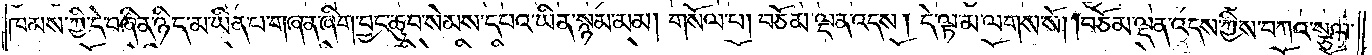ཁམས་ཀྱི་དེ་བཞིན་ཉིད་མ་ཡིན་པ་གཞན་ཞིག་བྱང་ཆུབ་སེམས་དཔའ་ཡིན་སྙམ་མམ། གསོལ་པ། བཅོམ་ལྡན་འདས། དེ་ལྟ་མ་ལགས་སོ། །བཅོམ་ལྡན་འདས་ཀྱིས་བཀའ་སྩལ་
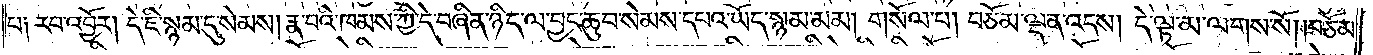པ༑ རབ་འབྱོར། དེ་ཇི་སྙམ་དུ་སེམས། རྣ་བའི་ཁམས་ཀྱི་དེ་བཞིན་ཉིད་ལ་བྱང་ཆུབ་སེམས་དཔའ་ཡོད་སྙམ་མམ། གསོལ་པ། བཅོམ་ལྡན་འདས། དེ་ལྟ་མ་ལགས་སོ། །བཅོམ་
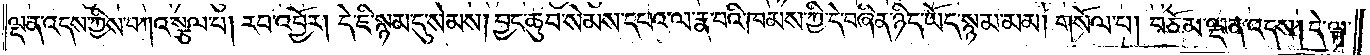ལྡན་འདས་ཀྱིས་བཀའ་སྩལ་པ། རབ་འབྱོར། དེ་ཇི་སྙམ་དུ་སེམས། བྱང་ཆུབ་སེམས་དཔའ་ལ་རྣ་བའི་ཁམས་ཀྱི་དེ་བཞིན་ཉིད་ཡོད་སྙམ་མམ། གསོལ་པ། བཅོམ་ལྡན་འདས། དེ་ལྟ་
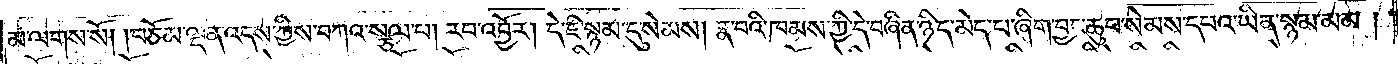མ་ལགས་སོ། །བཅོམ་ལྡན་འདས་ཀྱིས་བཀའ་སྩལ་པ། རབ་འབྱོར། དེ་ཇི་སྙམ་དུ་སེམས། རྣ་བའི་ཁམས་ཀྱི་དེ་བཞིན་ཉིད་མེད་པ་ཞིག་བྱང་ཆུབ་སེམས་དཔའ་ཡིན་སྙམ་མམ་།
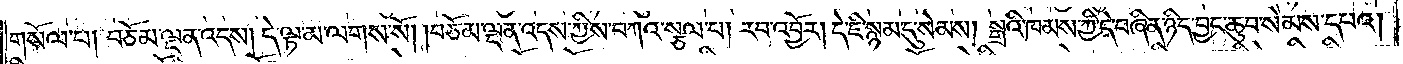གསོལ་པ། བཅོམ་ལྡན་འདས། དེ་ལྟ་མ་ལགས་སོ། །བཅོམ་ལྡན་འདས་ཀྱིས་བཀའ་སྩལ་པ། རབ་འབྱོར། དེ་ཇི་སྙམ་དུ་སེམས། སྒྲའི་ཁམས་ཀྱི་དེ་བཞིན་ཉིད་བྱང་ཆུབ་སེམས་དཔའ།
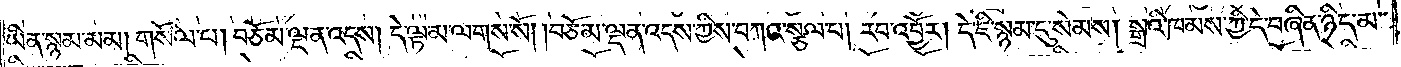ཡིན་སྙམ་མམ། གསོལ་པ། བཅོམ་ལྡན་འདས། དེ་ལྟ་མ་ལགས་སོ། །བཅོམ་ལྡན་འདས་ཀྱིས་བཀའ་སྩལ་པ། རབ་འབྱོར། དེ་ཇི་སྙམ་དུ་སེམས། སྒྲའི་ཁམས་ཀྱི་དེ་བཞིན་ཉིད་མ་
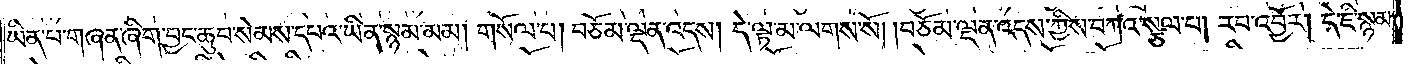ཡིན་པ་གཞན་ཞིག་བྱང་ཆུབ་སེམས་དཔའ་ཡིན་སྙམ་མམ། གསོལ་པ། བཅོམ་ལྡན་འདས། དེ་ལྟ་མ་ལགས་སོ། །བཅོམ་ལྡན་འདས་ཀྱིས་བཀའ་སྩལ་པ། རབ་འབྱོར། དེ་ཇི་སྙམ་
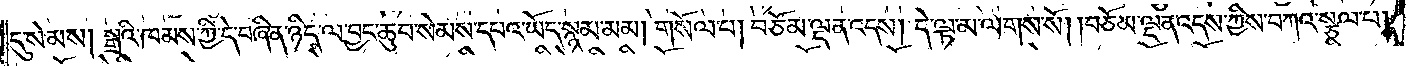དུ་སེམས། སྒྲའི་ཁམས་ཀྱི་དེ་བཞིན་ཉིད་ལ་བྱང་ཆུབ་སེམས་དཔའ་ཡོད་སྙམ་མམ། གསོལ་པ། བཅོམ་ལྡན་འདས། དེ་ལྟ་མ་ལགས་སོ། །བཅོམ་ལྡན་འདས་ཀྱིས་བཀའ་སྩལ་པ།
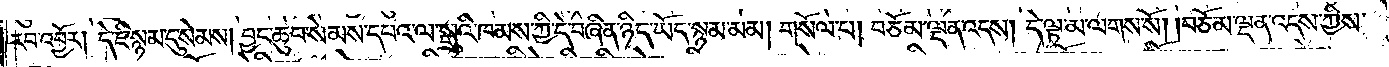རབ་འབྱོར། དེ་ཇི་སྙམ་དུ་སེམས། བྱང་ཆུབ་སེམས་དཔའ་ལ་སྒྲའི་ཁམས་ཀྱི་དེ་བཞིན་ཉིད་ཡོད་སྙམ་མམ། གསོལ་པ། བཅོམ་ལྡན་འདས། དེ་ལྟ་མ་ལགས་སོ། །བཅོམ་ལྡན་འདས་ཀྱིས་
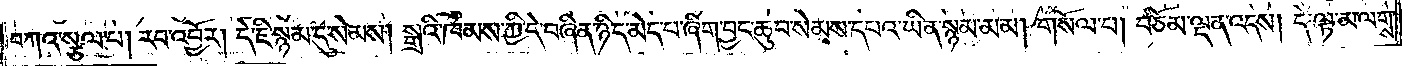བཀའ་སྩལ་པ། རབ་འབྱོར། དེ་ཇི་སྙམ་དུ་སེམས། སྒྲའི་ཁམས་ཀྱི་དེ་བཞིན་ཉིད་མེད་པ་ཞིག་བྱང་ཆུབ་སེམས་དཔའ་ཡིན་སྙམ་མམ། གསོལ་པ། བཅོམ་ལྡན་འདས། དེ་ལྟ་མ་ལགས་
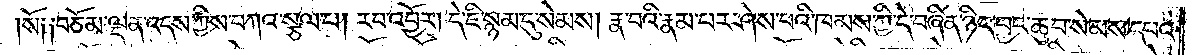སོ༑ ༑བཅོམ་ལྡན་འདས་ཀྱིས་བཀའ་སྩལ་པ། རབ་འབྱོར། དེ་ཇི་སྙམ་དུ་སེམས། རྣ་པའི་རྣམ་པར་ཤེས་པའི་ཁམས་ཀྱི་དེ་བཞིན་ཉིད་བྱང་ཆུབ་སེམས་དཔའ་
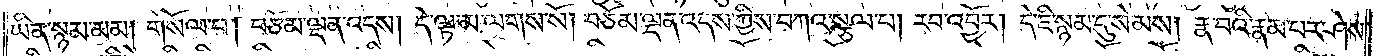ཡིན་སྙམ་མམ། གསོལ་པ། བཅོམ་ལྡན་འདས། དེ་ལྟ་མ་ལགས་སོ། བཅོམ་ལྡན་འདས་ཀྱིས་བཀའ་སྩལ་པ། རབ་འབྱོར། དེ་ཇི་སྙམ་དུ་སེམས། རྣ་བའི་རྣམ་པར་ཤེས་
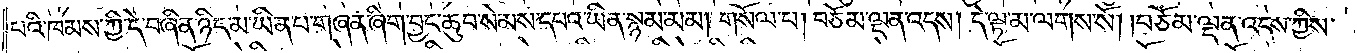པའི་ཁམས་ཀྱི་དེ་བཞིན་ཉིད་མ་ཡིན་པ་གཞན་ཞིག་བྱང་ཆུབ་སེམས་དཔའི་ཡིན་སྙམ་མམ། གསོལ་པ། བཅོམ་ལྡན་འདས། དེ་ལྟ་མ་ལགས་སོ། །བཅོམ་ལྡན་འདས་ཀྱིས་
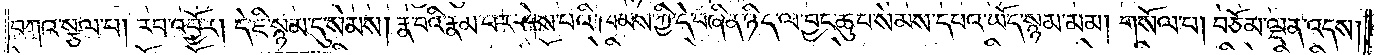བཀའ་སྩལ་པ། རབ་འབྱོར། དེ་ཇི་སྙམ་དུ་སེམས། རྣ་བའི་རྣམ་པར་ཤེས་པའི་ཁམས་ཀྱི་དེ་བཞིན་ཉིད་ལ་བྱང་ཆུབ་སེམས་དཔའ་ཡོད་སྙམ་མམ། གསོལ་པ། བཅོམ་ལྡན་འདས།
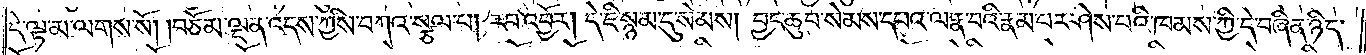དེ་ལྟ་མ་ལགས་སོ། །བཅོམ་ལྡན་འདས་ཀྱིས་བཀའ་སྩལ་པ། རབ་འབྱོར། དེ་ཇི་སྙམ་དུ་སེམས། བྱང་ཆུབ་སེམས་དཔའ་ལ་རྣ་བའི་རྣམ་པར་ཤེས་པའི་ཁམས་ཀྱི་དེ་བཞིན་ཉིད་
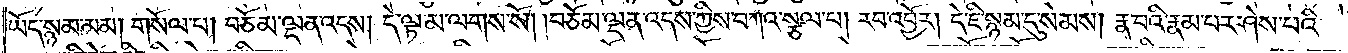ཡོད་སྙམ་མམ། གསོལ་པ། བཅོམ་ལྡན་འདས། དེ་ལྟ་མ་ལགས་སོ། །བཅོམ་ལྡན་འདས་ཀྱིས་བཀའ་སྩལ་པ། རབ་འབྱོར། དེ་ཇི་སྙམ་དུ་སེམས། རྣ་བའི་རྣམ་པར་ཤེས་པའི་
